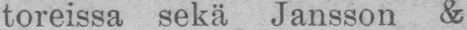toreissa sekä Jansson &
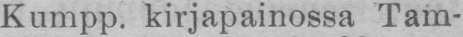Kumpp. kirjapainossa Tam-
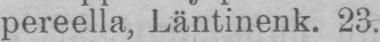pereella, Läntinenk. 23.
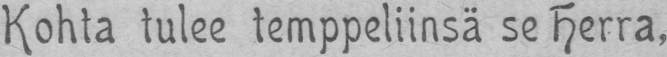Kohta tulee temppeliinsä se Herra,
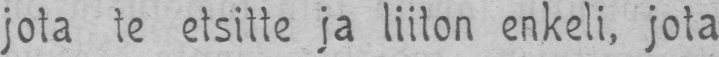jota te etsitte ja liiton enkeli, jota
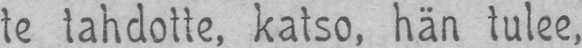te tahdotte, katso, hän tulee, sanoo
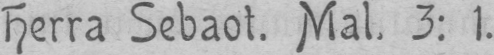Herra Sebaot. Mal. 3: 1.
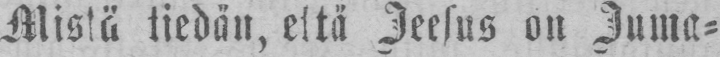Mistä tiedän, että Jeesus on Juma-
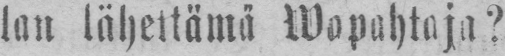lan lähettämä Wapahtaja?
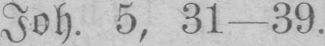Joh. 5, 31—39.
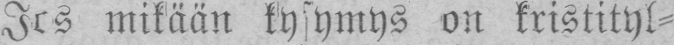Jos mikään kysymys on kristityl-
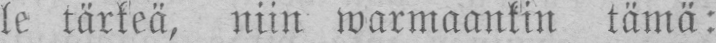le tärkeä, niin warmaankin tämä:
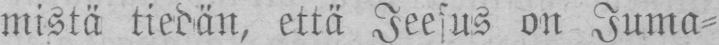mistä tiedän, että Jeesus on Juma-
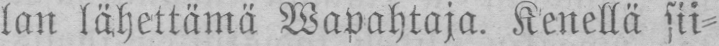lan lähettämä Wapahtaja. Kenellä sii-
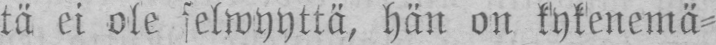tä ei ole selwyyttä, hän on kykenemä-
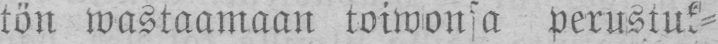tön wastaamaan toiwonsa perustuk-
